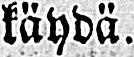käydä.
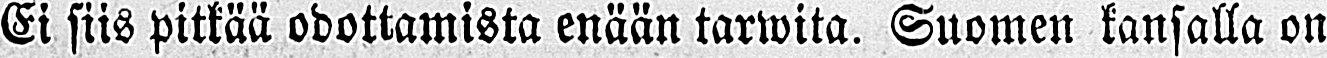Ei siis pitkää odottamista enään tarwita. Suomen kansalla on
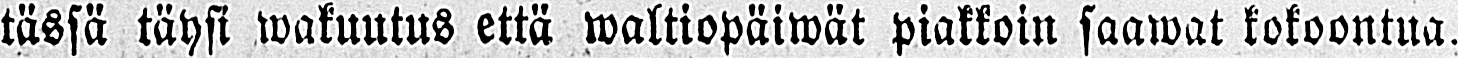tässä täysi wakuutus että waltiopäiwät piakkoin saawat kokoontua.
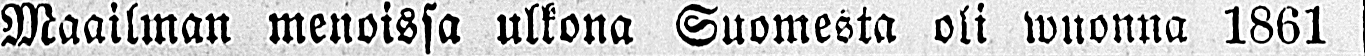Maailman menoissa ulkona Suomesta oli wuonna 1861
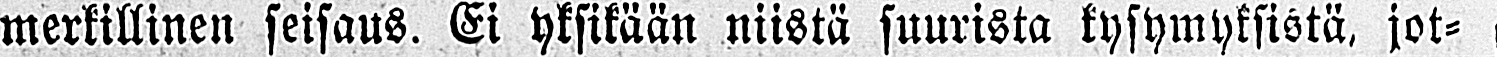merkillinen seisaus. Ei yksikään niistä suurista kysymyksistä, jot-
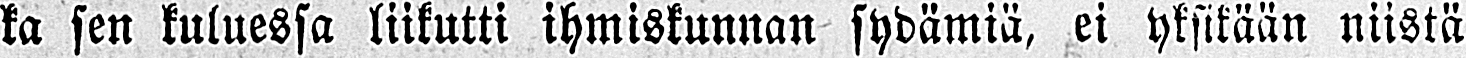ka sen kuluessa liikutti ihmiskunnan sydämiä, ei yksikään niistä
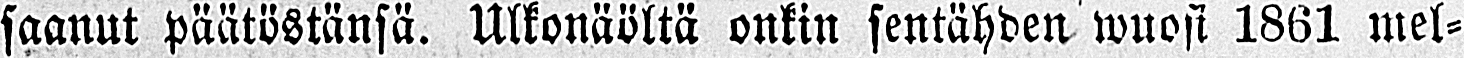saanut päätöstänsä. Ulkonäöltä onkin sentähden wuosi 1861 mel-
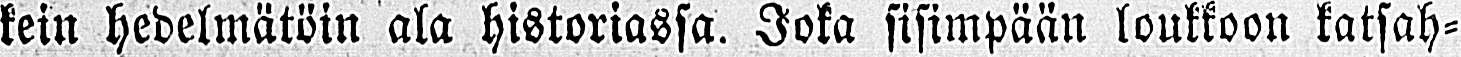kein hedelmätöin ala historiassa. Joka sisimpään loukkoon katsah-
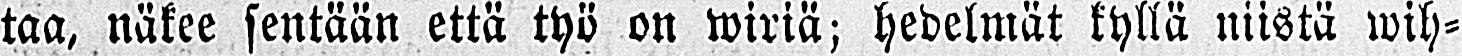taa, näkee sentään että työ on wiriä; hedelmät kyllä niistä wih-
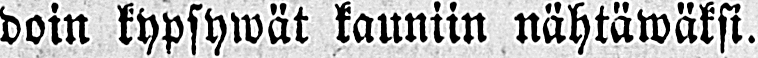doin kypsywät kauniin nähtäwäksi.
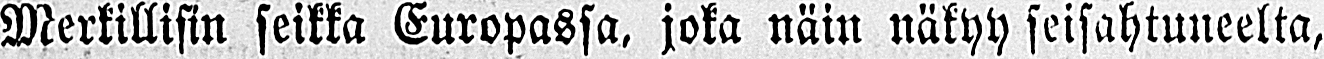Merkillisin seikka Europassa, joka näin näkyy seisahtuneelta,
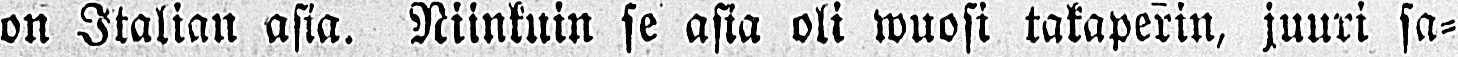on Italian asia. Niinkuin se asia oli wuosi takaperin, juuri sa-
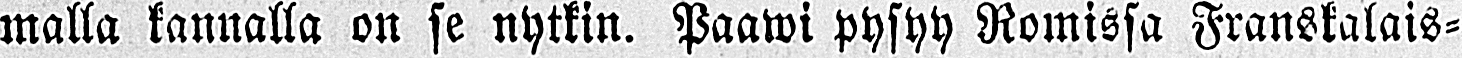malla kannalla on se nytkin. Paawi pysyy Romissa Franskalais-
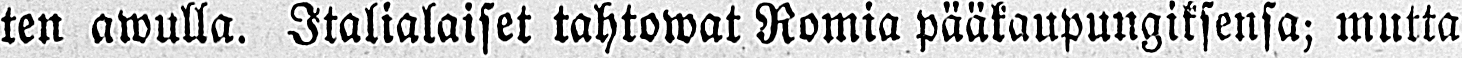ten awulla. Italialaiset tahtowat Romia pääkaupungiksensa; mutta
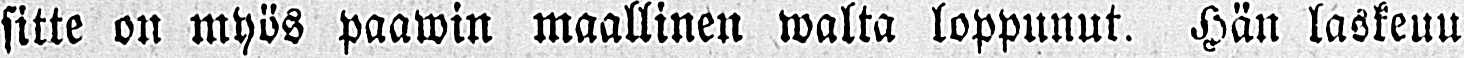sitte on myös paawin maallinen walta loppunut. Hän laskeuu
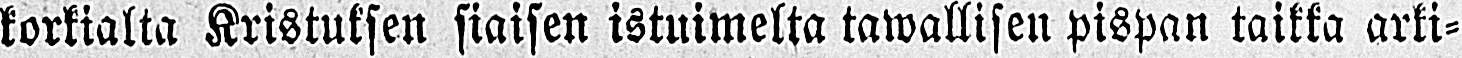korkialta Kristuksen siaisen istuimelta tawallisen pispan taikka arki-
